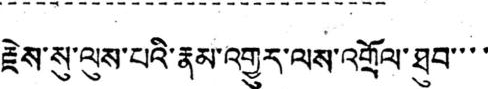རྗེས་སུ་ལུས་པའི་རྣམ་འགྱུར་ལས་འགྲོལ་ཐུབ་་་་
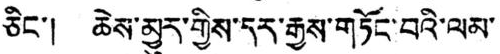ཅིང་། ཆེས་མྱུར་གྱིས་དར་རྒྱས་གཏོང་བའི་ལམ་
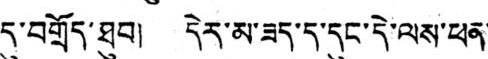དུ་བགྲོད་ཐུབ། དེར་མ་ཟད་ད་དུང་དེ་ལས་ཕན་
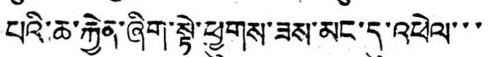པའི་ཆ་རྐྱེན་ཞིག་སྟེ་ཕྱུགས་ཟས་མང་དུ་འཕེལ་་་་
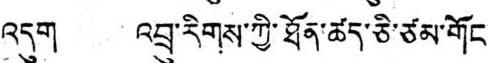འདུག འབྲུ་རིགས་ཀྱི་ཐོན་ཚད་ཅི་ཙམ་གོང་
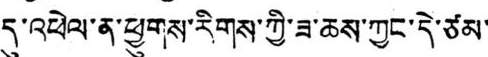དུ་འཕེལ་ན་ཕྱུགས་རིགས་ཀྱི་ཟ་ཆས་ཀྱང་དེ་ཙམ་
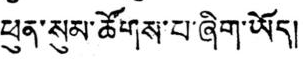ཕུན་སུམ་ཚོགས་པ་ཞིག་ཡོད།
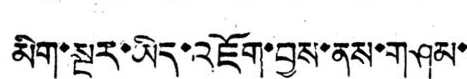མིག་སྔར་ཡིད་འཇོག་བྱས་ནས་གཤམ་
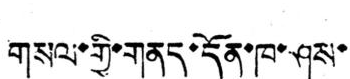གསལ་གྱི་གནད་དོན་ཁ་ཤས་
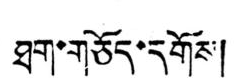ཐག་གཅོད་དགོས།
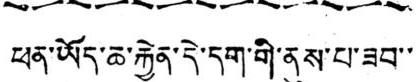ཕན་ཡོད་ཆ་རྐྱེན་དེ་དག་གི་ནུས་པ་ཟབ་་་
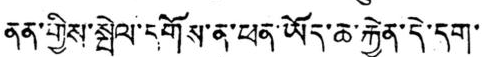ནན་གྱིས་སྤེལ་དགོས་ན་ཕན་ཡོད་ཆ་རྐྱེན་དེ་དག་་
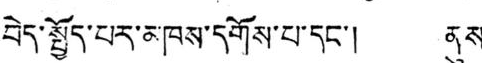བེད་སྤྱོད་པར་མཁས་དགོས་པ་དང་། ནུས་
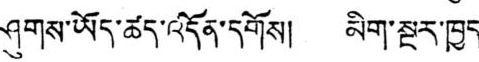ཤུགས་ཡོད་ཚད་འདོན་དགོས། མིག་སྔར་ཁྱད་
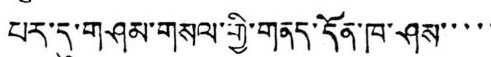པར་དུ་གཤམ་གསལ་གྱི་གནད་དོན་ཁ་ཤས་་་་་
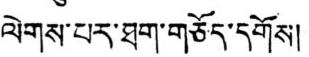ལེགས་པར་ཐག་གཅོད་དགོས།
